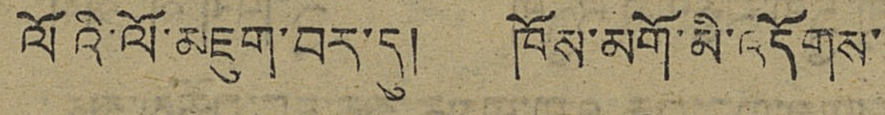ལོའི་ལོ་མཇུག་བར་དུ། ཁོས་མགོ་མི་འདོགས་
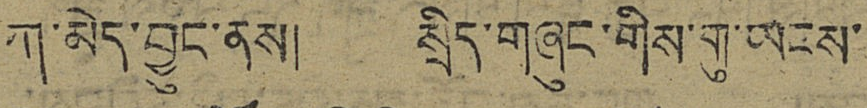ཀ་མེད་བྱུང་ནས། སྲིད་གཞུང་གིས་གུ་ཡངས་
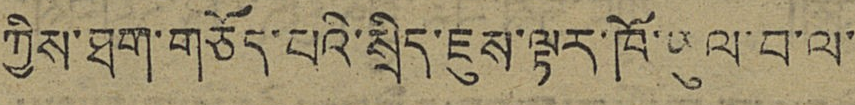ཀྱིས་ཐག་གཅོད་པའི་སྲིད་ཇུས་ལྟར་ཁོ་ཡུལ་བ་ལ་
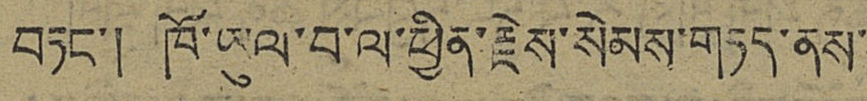བཏང་། ཁོ་ཡུལ་བ་ལ་ཕྱིན་རྗེས་སེམས་གཏད་ནས་
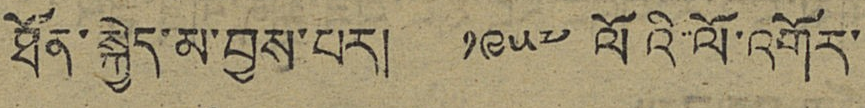ཐོན་སྐྱེད་མ་བྱས་པར། ༡༩༥༧ ལོའི་ལོ་འགོར་
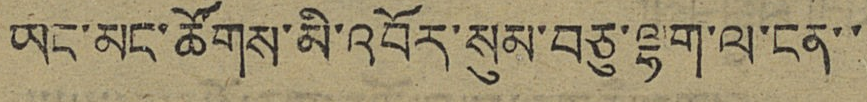ཡང་མང་ཚོགས་མི་འབོར་སུམ་བཅུ་ལྷག་ལ་ངན་་
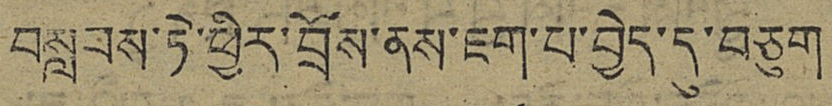བསླབས་ཏེ་ཕྱིར་བྲོས་ནས་ཇག་པ་བྱེད་དུ་བཅུག
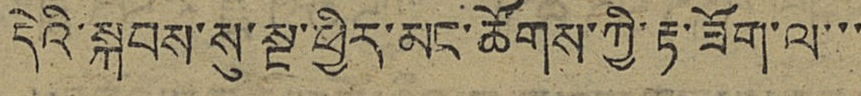དེའི་སྐབས་སུ་སྔ་ཕྱིར་མང་ཚོགས་ཀྱི་རྟ་ཟོག་ལ་་་
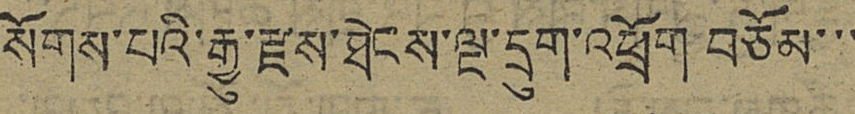སོགས་པའི་རྒྱུ་རྫས་ཐེངས་ལྔ་དྲུག་འཕྲོག་བཅོམ་་་
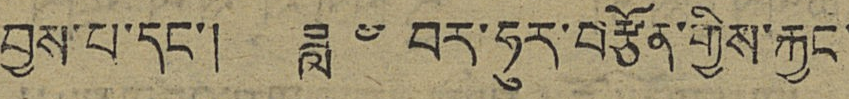བྱས་པ་དང་། ཟླ ༤ བར་ཧུར་བརྩོན་གྱིས་རྐྱང་
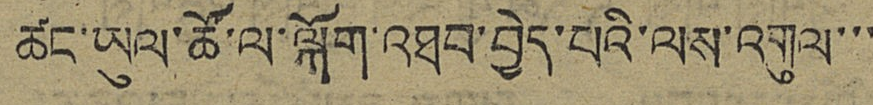ཚང་ཡུལ་ཚོ་ལ་ལྐོག་འཐབ་བྱེད་པའི་ལས་འགུལ་་་
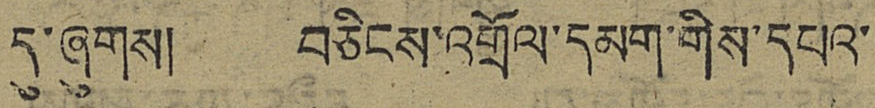དུ་ཞུགས། བཅིངས་འགྲོལ་དམག་གིས་དཔའ་
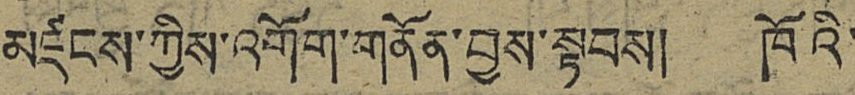མཛངས་ཀྱིས་འགོག་གནོན་བྱས་སྟབས། ཁོའི་
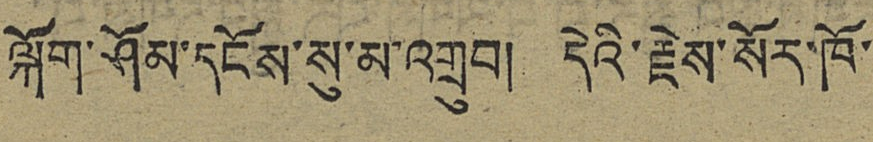ལྐོག་ཤོམ་དངོས་སུ་མ་འགྲུབ། དེའི་རྗེས་སོར་ཁོ་
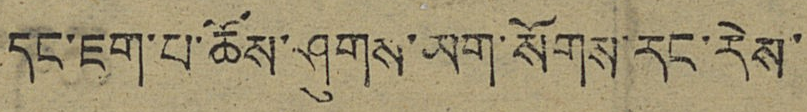དང་ཇག་པ་ཆོས་ཤུགས་ཡག་སོགས་རང་རེས་
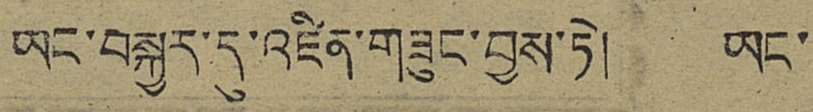ཡང་བསྐྱར་དུ་འཛིན་གཟུང་བྱས་ཏེ། ཡང་
